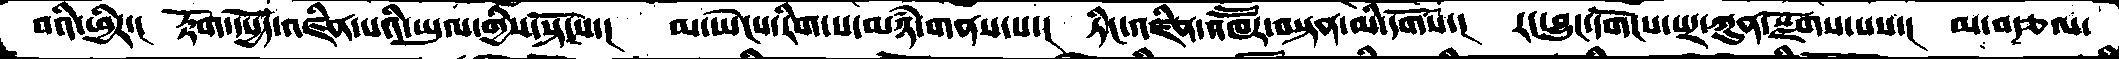བའི་ཕྱིར་།  རྟོག་དཔྱོད་འཛིན་པའི་ཡུལ་གྱིས་སྟོངས་།  མ་ཡེངས་རིག་པ་མཉཾ་གནས་པ་།  ཏིང་འཛིན་འཁཽར་བསྟན་མི་དགོས་།  རང་བྱུང་དགོངས་པར་ཀུན་སྫོགས་པས་།  མ་བརྩལ་
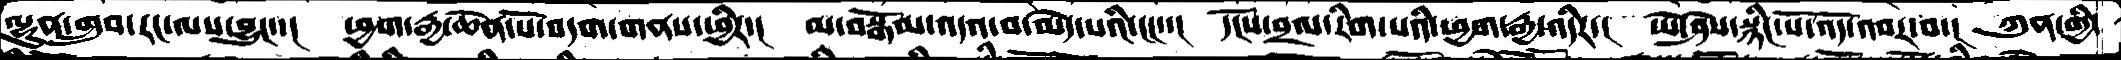ལྷུན་གྲུབ་རང་ལས་བྱུང་་།  ཕྱག་རྒྱ་ཆེན་པོ་བདག་གནས་ཕྱིར་།  མ་བསྒོམ་འདའ་བ་མེད་པའི་ངང་་།  དངོས་བྲལ་རིག་པའི་ཕྱག་རྒྱ་འདིར་།  ཡེ་ཤེས་སྙིང་པོ་འོད་འབར་བ་།  ཀུན་གྱི་
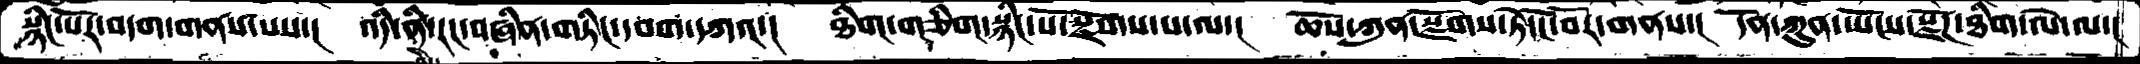སྙིང་པོར་བདག་གནས་པས་།  འདི་ནི་རང་བཞིན་གཏིང་དཔག་དཀའ་།  ཐིག་གཅིག་སྙིང་པོ་སྫོགས་པ་ལ་།   ཆོས་ཀུན་སྫོགས་ཏེ་ངོ་བོར་གནས་།  དོན་ཀུན་ཡོངས་སྫོཌ་ཐིག་ལེ་ལ་།
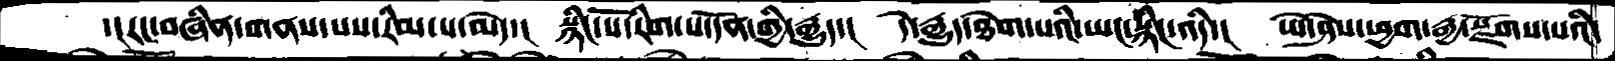་།རང་བཞིན་གནས་པས་རིམ་པ་མེད་།   སྙིང་པོ་རིག་པ་དོན་གྱི་རྒྱུད་།    དེ་རྒྱུད་ཐེག་པའི་ཡང་སྙིང་འདི་།  ཡེ་ཤེས་ཕྱག་རྒྱ་སྫོགས་པའི་
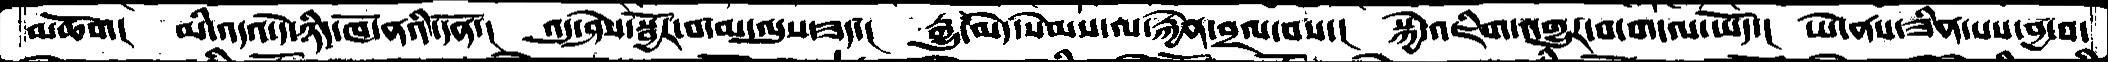མཆོག།   མི་འདའ་དེ་ཉིད་ཁོ་ནའི་དོན་།   འདུ་ཤེས་སྦྱོར་བ་མ་ལུས་ཟད་།   རྒྱུ་མེད་སེམས་ལ་རྐྱེན་བྲལ་བས་།   སྐྱེ་འཇིག་འགྱུར་བ་བདག་ལ་ཡོད་།  ཡེ་ནས་ཟིན་པས་བྱ་བ་
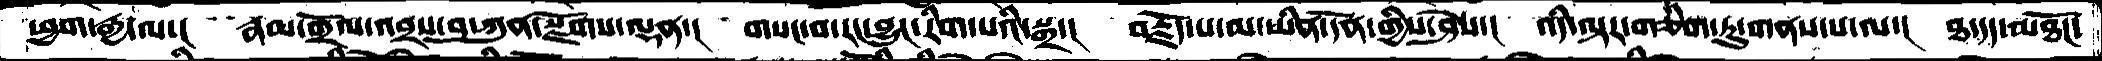ཕྱག་རྒྱ་ལ་།    རྣམ་གྲོལ་འབྲས་བུ་ཀུན་སྫོགས་ལྡན་།   གསང་བ་རང་བྱུང་རིག་པའི་སྒྲ་།  བརྗོད་པ་མ་ཡིན་དོན་གྱིས་ཤེས་།   འདི་ལྟར་གཅིག་ཏུ་གནས་པ་ལ་།  ཐ་དད་མཐོང་
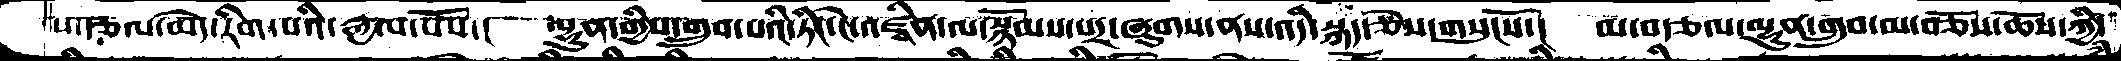ས་རྩལ་མེད་རིག་པའི་རྒྱལ་པོས་།  ལྷུན་གྱིས་གྲུབ་པའི་ཏིང་ངེ་འཛིན་ལ་སྙོམས་པར་ཞུགས་ནས་འདི་སྐད་ཅེས་གསུངསོ་།  མ་བརྩལ་ལྷུན་གྲུབ་མ་བཅོས་ཆོས་ཀྱི་
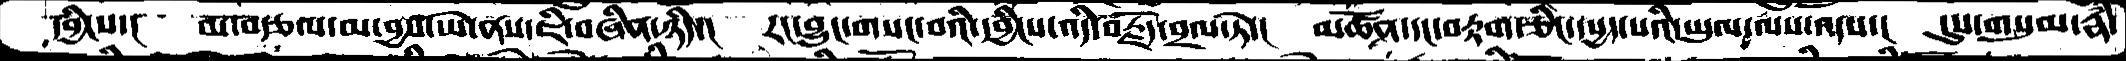དབྱིངས་།   མ་བརྩལ་མ་བྱས་ཡེ་ནས་ཇི་བཞིན་ཉིད་།   རང་བྱུང་གསང་བའི་དབྱིངས་འདི་བརྗོད་བྲལ་ཏེ་།   མཚོན་དང་བརྟག་ཅིང་དཔྱད་པའི་ཡུལ་ལས་འདས་།  དུས་གསུམ་རྣཾ་
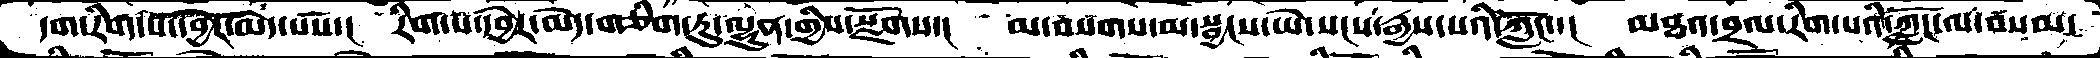དག་རིག་པ་དབྱེར་མེད་པས་།   རིག་པ་དབྱེར་མེད་གཅིག་ཏུ་ལྷུན་གྱིས་སྫོགས་།   མ་བསགས་མ་སྦྱངས་ཡེ་སངས་རྒྱས་པའི་ཀློང་་།   མཐའ་བྲལ་རིག་པའི་ཀློང་ལ་བསམ་
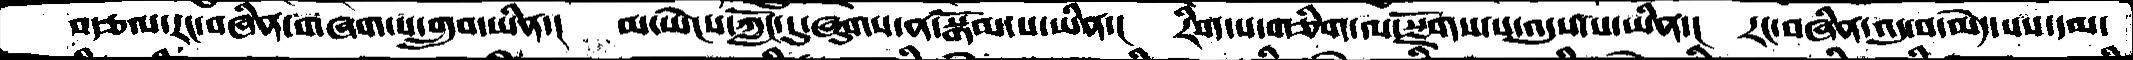བརྩལ་རང་བཞིན་གཞག་པ་གྲུབ་ཡིན་།   མ་ཡེངས་ཀློང་དུ་ཞུགས་ན་སྒོམ་པ་ཡིན་།  རིག་པ་གཅིག་ལ་སྫོགས་པ་འདུས་པ་ཡིན་།  རང་བཞིན་འདུ་བ་མེད་པས་དམ་
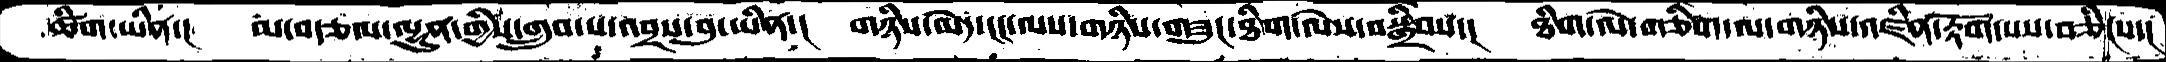ཚིག་ཡིན་།  མ་བརྩལ་ལྷུན་གྱིས་གྲུབ་པ་འབྲས་བུ་ཡིན་།   གཉིས་མེད་ངང་ལས་གཉིས་གཟུང་ཐིག་ལེས་བསྒྲིབས་།  ཐིག་ལེ་གཅིག་ལ་གཉིས་འཛིན་རྟོག་པས་བཅིངས་།
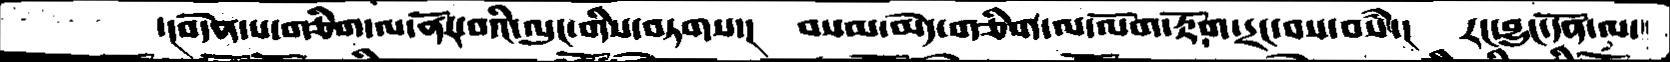་།བདེན་པ་གཅིག་ལ་ནོར་བའི་ལུང་གིས་བཏགས་། བསམ་མེད་གཅིག་ལ་ལོག་རྟོག་དྲང་བས་བསམ་། རང་བྱུང་དོན་ལ་
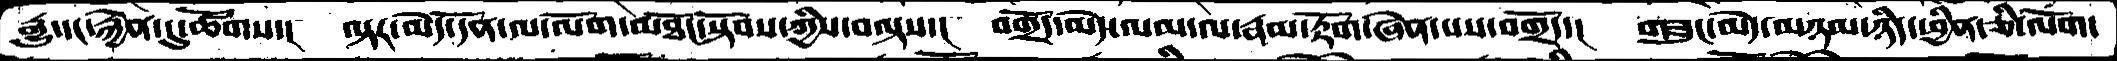རྒྱུ་དང་རྐྱེན་དུ་ཚོགས་།  ལྟར་མེད་དོན་ལ་ལོག་མཐོང་སྟོབས་ཀྱིས་བལྟས་།   བགྲོད་མེད་ལམ་ལ་རྣམ་རྟོག་ཞེན་པས་བགྲོད་།  གཟུང་མེད་མཉམ་ཉིད་ཕྱིན་ཅི་ལོག་
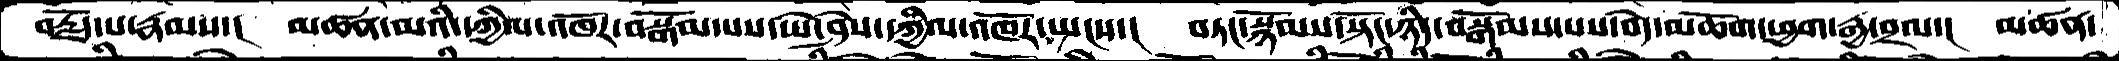བརྗོད་པ་རྣམས་།   མཚན་མའི་དཀྱིལ་འཁོར་བསྒོམ་པས་ཡེ་ཤེས་དཀྱིལ་འཁོར་སྤངས་།    བཏང་སྙོམས་སྟོང་ཉིད་བསྒོམས་པས་བདེ་མཆོག་ཕྱག་རྒྱ་བྲལ་།  མཚན་
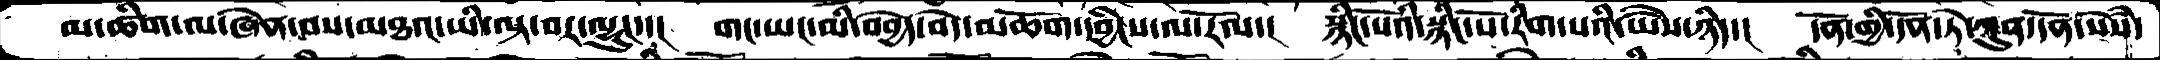མ་ཚིག་ལ་ཞེན་བས་མཐའ་ཡི་ལྟ་བར་ལྷུང་་།   གང་ཡང་མི་བབྱེད་བདེ་མཆོག་དབྱིངས་ལ་རོལ་།  སྙིང་པོའི་སྙིང་པོ་རིག་པའི་ཡཻས་ཉིད་།  དོན་གྱི་དོན་ཏེ་ཀུན་དོན་སེཾས་
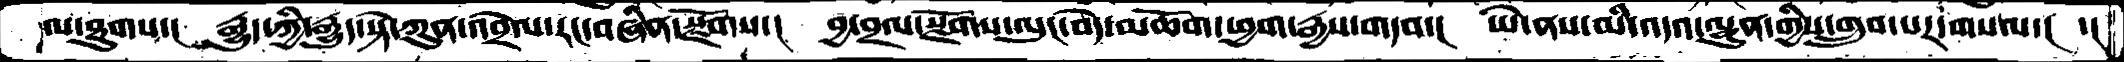ལ་ཐུགས་།   རྒྱུད་ཀྱི་རྒྱུད་སྟེ་ཀུན་འབྲེལ་རང་བཞིན་སྫོགས་།  བྱ་བྲལ་སྫོགས་ལུང་བདེ་མཆོག་ཕྱག་རྒྱས་གདབ་།  ཡེ་ནས་མི་འདའ་ལྷུན་གྱིས་གྲུབ་པར་གསལ་།   ་།
